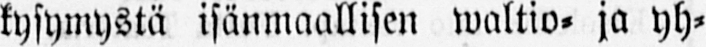kysymystä isänmaallisen waltio- ja yh-
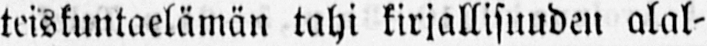teiskuntaelämän tahi kirjallisuuden alal-
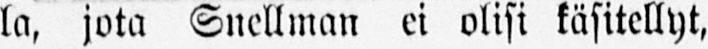la, jota Snellman ei olisi käsitellyt,
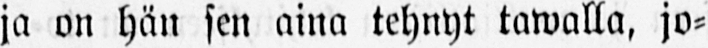ja on hän sen aina tehnyt tawalla, jo-
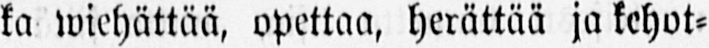ka wiehättää, opettaa, herättää ja kehot-
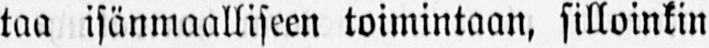taa isänmaalliseen toimintaan, silloinkin
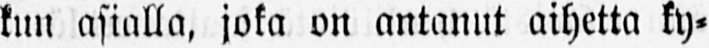kun asialla, joka on antanut aihetta ky-
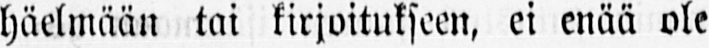häelmään tai kirjoitukseen, ei enää ole
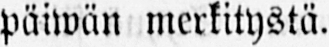päiwän merkitystä.
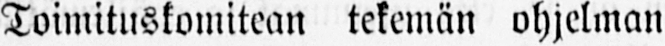Toimituskomitean tekemän ohjelman
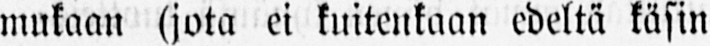mukaan (jota ei kuitenkaan edeltä käsin
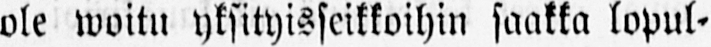ole woitu yksityisseikkoihin saakka lopul-
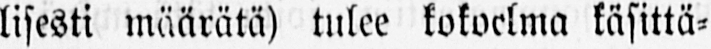lisesti määrätä) tulee kokoelma käsittä-
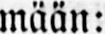mään:
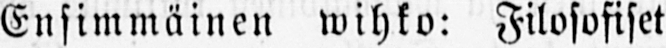Ensimmäinen wihko: Filosofiset
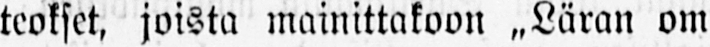teokset, joista mainittakoon „Läran om
